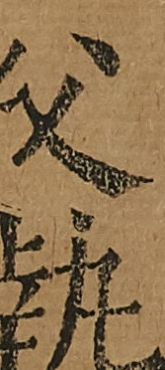父執
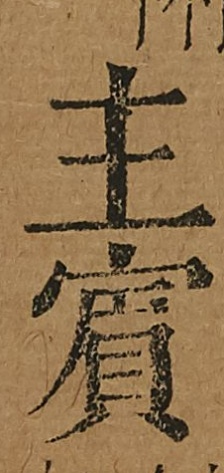主賓
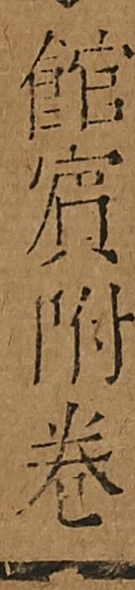館賓附卷
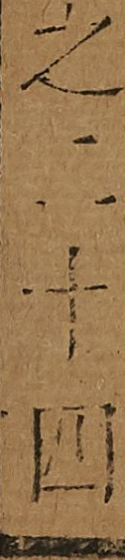之二十四
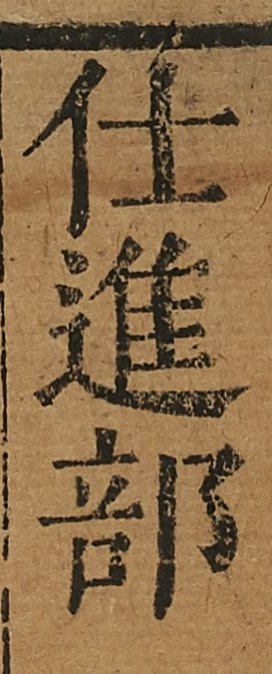仕進部
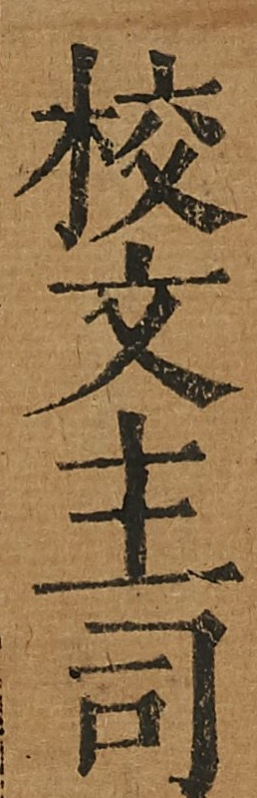校文主司
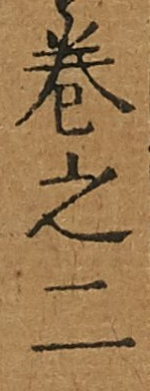卷之二
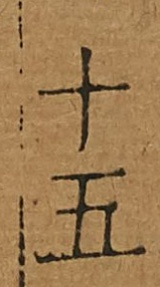十五
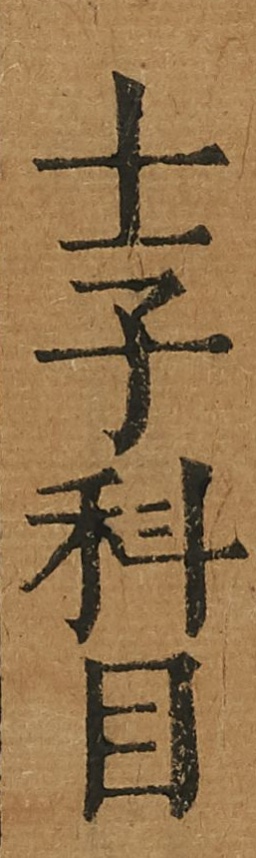士子科目
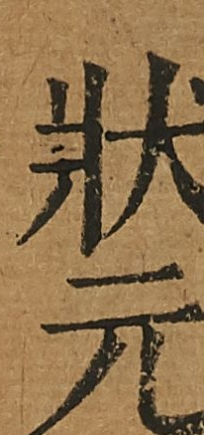状元
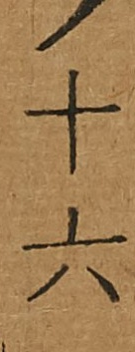十六
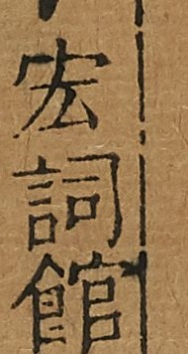宏詞館
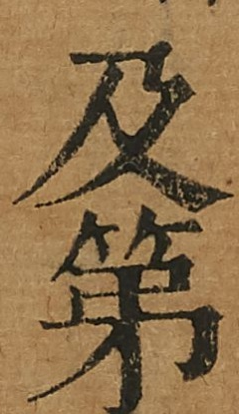及第
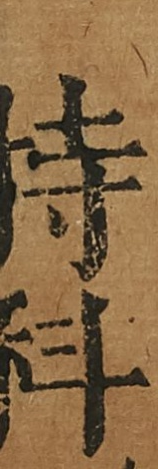特科
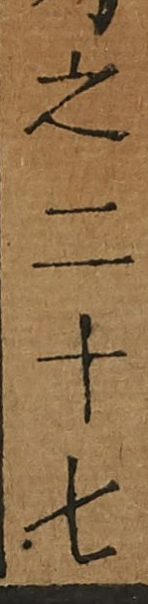之二十七
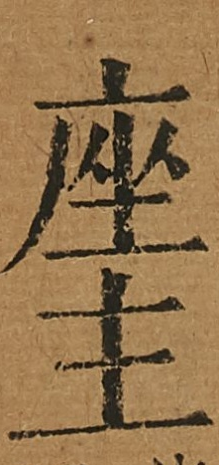座主
